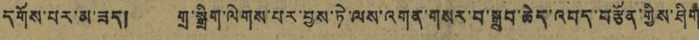དགོས་པར་མ་ཟད། གྲ་སྒྲིག་ལེགས་པར་བྱས་ཏེ་ལས་འགན་གསར་བ་སྒྲུབ་ཆེད་འབད་བརྩོན་གྱིས་ཤིག
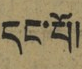དང་པོ།
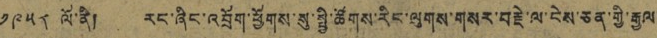༡༩༥༨ ལོ་ནི། རང་ཞིང་འབྲོག་ཕྱོགས་སུ་སྤྱི་ཚོགས་རིང་ལུགས་བརྗེ་ལ་ངེས་ཅན་གྱི་རྒྱལ་
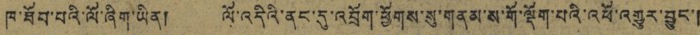ཁ་ཐོབ་པའི་ལོ་ཞིག་ཡིན། ལོ་འདིར་ནང་དུ་འབྲོག་ཕྱོགས་སུ་གནམ་ས་གོ་ལྡོག་པའི་འཕོ་འགྱུར་བྱུང་།
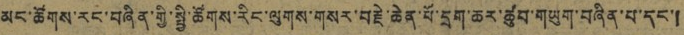མང་ཚོགས་རང་བཞིན་གྱི་སྤྱི་ཚོགས་རིང་ལུགས་གསར་བརྗེ་ཆེན་པོ་དྲག་ཆར་ཚུབ་གཡུག་གཞིན་པ་དང་།
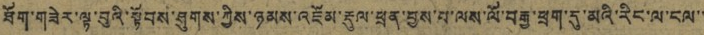ཐོག་གཟེར་ལྟ་བུའི་སྟོབས་ཤུགས་ཀྱིས་ཉམས་འཇོམ་རྡུལ་ཕྲན་བྱས་པ་ལས་ལོ་བརྒྱ་ཕྲག་དུ་མའི་རིང་ལ་ངལ་་་
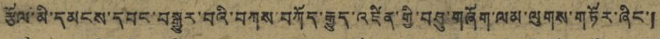རྩོལ་མི་དམངས་དབང་བསྒྱུར་བའི་བཀས་བཀོད་རྒྱུད་འཛིན་གྱི་བཤུ་གཞོག་ལམ་ལུགས་གཏོར་ཞིང་།
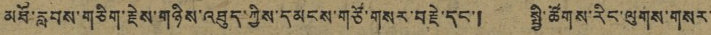མཐོ་རླབས་གཅིག་རྗེས་གཉིས་འཐུད་ཀྱིས་དམངས་གཙོ་གསྲ་བརྗེ་དང་། སྤྱི་ཚོགས་རིང་ལུགས་གསར་
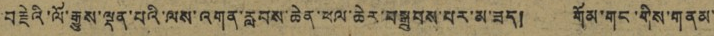བརྗེའི་ལོ་རྒྱུས་ལྡན་པའི་ལས་འགན་རླབས་ཆེན་ཕལ་ཆེར་བསྒྲུབས་པར་མ་ཟད། གོམ་གང་གིས་གནམ་
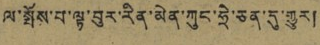ལ་སྤོས་པ་ལྟ་བུར་རིན་མེན་ཀུང་ཧྲེ་ཅན་དུ་གྱར།
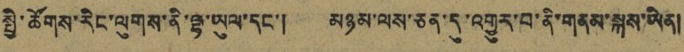སྤྱི་ཚོགས་རིང་ལུགས་ནི་ལྷ་ཡུལ་དང་། མཉམ་ལས་ཅན་དུ་འགྱུར་བ་ནི་གནམ་སྐས་ཡིན།
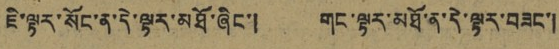ཇི་ལྟར་སོང་ན་དེ་ལྟར་མཐོ་ཞིང་། གང་ལྟར་མཐོ་ན་དེ་ལྟར་བཟང་།
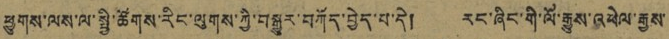ཕྱུགས་ལས་ལ་སྤྱི་ཚོགས་རིང་ལུགས་ཀྱི་བསྒྱུར་བཀོད་བྱེད་པ་དེ། རང་ཞིང་གི་ལོ་རྒྱུས་འཕེལ་རྒྱས་
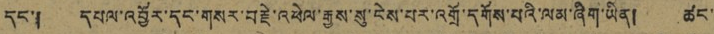དང་། དཔལ་འབྱོར་དང་གསར་བརྗེ་འཕེལ་རྒྱས་སུ་ངེས་པར་འགྲོ་དགོས་པའི་ལམ་ཞིག་ཡིན། ཚང་
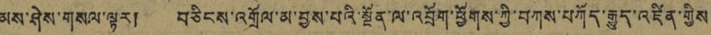མས་ཤེས་གསལ་ལྟར། བཅིངས་འགྲོལ་མ་བྱས་པའི་སྔོན་ལ་འབྲོག་ཕྱོགས་ཀྱི་བཀས་བཀོད་རྒྱུད་འཛིན་གྱིས་
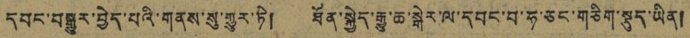དབང་བསྒྱུར་བྱེད་པའི་གནས་སུ་གྱུར་ཏེ། ཐོན་སྐྱེད་རྒྱུ་ཆ་སྒེར་ལ་དབང་བ་ཧ་ཅང་གཅིག་སྡུད་ཡིན།
